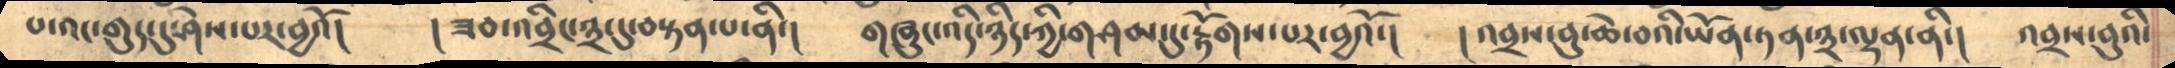པ་འང་གུད་དུ་ཤེས་པར་བྱའོ།   ། ཟབ་འབྲིང་༣་དུ་བསྟན་པ་ནི་།    གཞུང་འདི་ཉིད་ཀྱི་གཤམ་དུ་རྟོགས་པར་བྱའོ་།   ། འབྲས་བུ་ཆེ་བའི་ཡོན་ཏན་༣་ལྡན་ནི་།   འབྲས་བུའི་
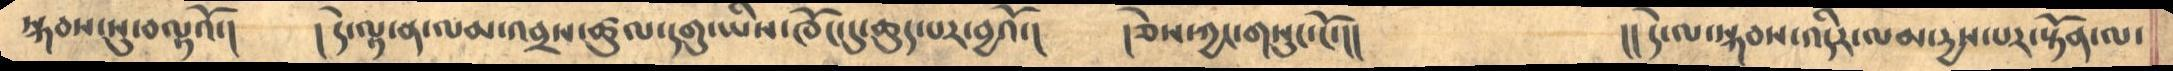སྐབས་སུ་བལྟའོ་།    ། དེ་ལྟ་ན་ལམ་འབྲས་ཚུལ་དགུ་ཡིས་ཁོང་དུ་ཆུད་པར་བྱའོ་།    ། ཅེས་ཀྱང་གསུང་ངོ་།།          །། དེ་ལ་སྐབས་འདིར་ལམ་དྱས་པར་སྟོན་ལ་
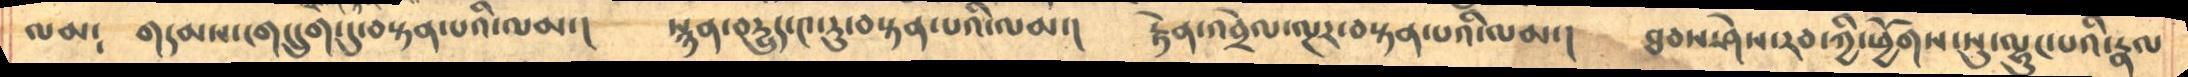ལམ༴    གདམས་ངག་དྲུག་དུ་བསྟན་པའི་ལམ་།    སྙན་བདྱུད་༤་རུ་བསྟན་པའི་ལམ་།    རྟེན་འབྲེལ་ལྔར་བསྟན་པའི་ལམ་།    ཐབས་ཤེས་རབ་ཀྱི་ཕྱོགས་སུ་ལྷུང་པའི་རྣལ
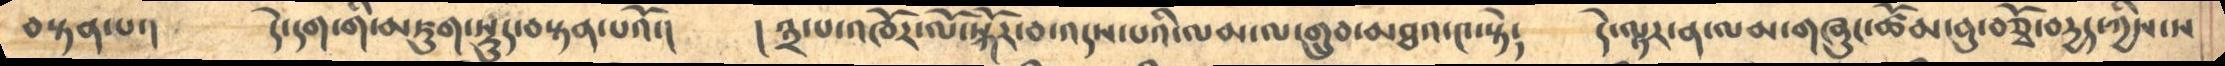བསྟན་པ་།    དེ་དག་གི་མཇུག་སྡུད་བསྟན་པའོ་།    ། ༣་པ་འཁོར་ལོ་སྐོར་བ་འདས་པའི་ལམ་ལ་གྲུབ་མཐའ་༤་སྟེ་    དེ་ལྟར་ན་ལམ་གཞུང་ཚོམ་བུ་བཅྭོ་བདྱད་ཀྱིས་ས
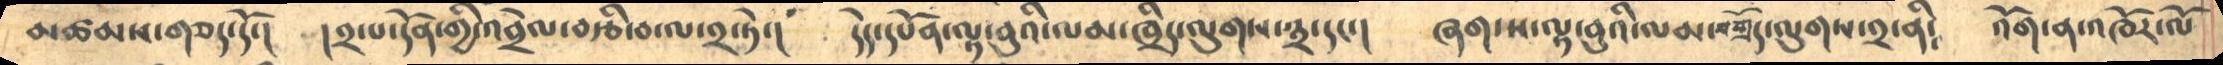མཚམས་གཅད་དོ་།      །༢་པ་དོན་གྱི་འབྲེལ་བརྩི་བ་ལ་༢་ཏེ་།     དེད་དཔོན་ལྟ་བུའི་ལམ་ཁྲིད་ལུགས་༣་དང་།    ཞག་ས་ལྟ་བུའི་ལམ་བགྲོད་ལུགས་༢་ནི༴   འོག་ན་འཁོར་ལོ
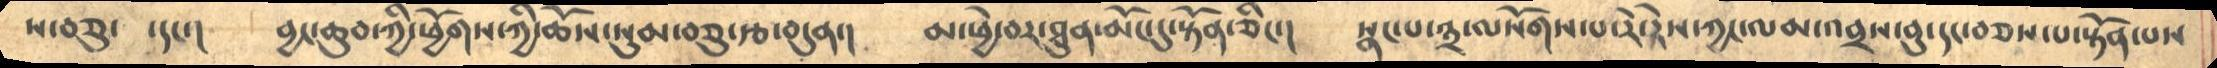ས་བཅུ་  ་དང་།      བྱང་ཆུབ་ཀྱི་ཕྱོགས་ཀྱི་ཆོས་སུམ་བཅུ་རྩ་བདུན་།     མ་ཕྱེ་བར་ཐུན་མོང་དུ་སྟོན་ཅིང་།    སྣང་པ་༣་ལསོགས་པ་རེ་རེས་ཀྱང་ལམ་འབྲས་བུ་དང་བཅས་པ་སྟོན་པས
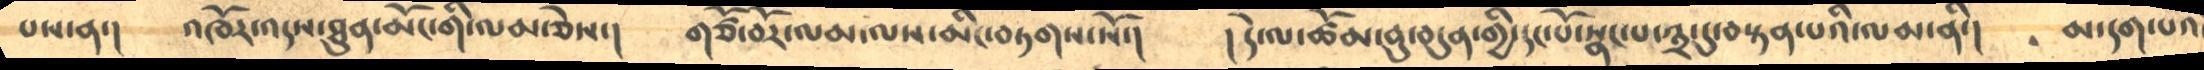པས་ན་།       འཁོར་འདས་ཐུནམོང་གི་ལམ་ཅེས་།    གཙོ་བོར་ལམ་ལས་མིང་བཏགས་སོ་།     ། དེ་ལ་ཚོམ་བུ་བདུན་གྱི་དང་པོ་སྣང་པ་༣་དུ་བསྟན་པའི་ལམ་ནི་།   མ་དག་པའི
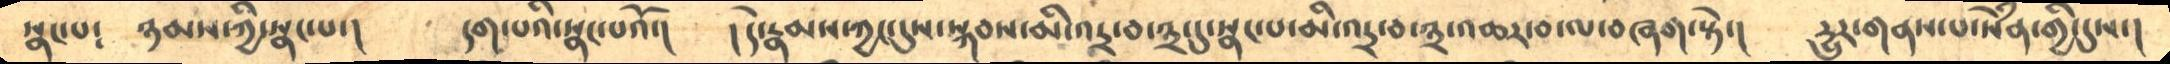སྣང་པ༴    ཉམས་ཀྱི་སྣང་པ་།    དག་པའི་སྣང་པའོ་།     ། དེ་རྣམས་ཀྱང་དུས་སྐབས་མི་འདྲ་བ་༣་དུ་སྣང་པ་མི་འདྲ་བ་༣་འཆར་བ་ལ་བཞག་སྟེ་།  དྱུར་གནས་པ་སེཾན་གྱི་དུས་།
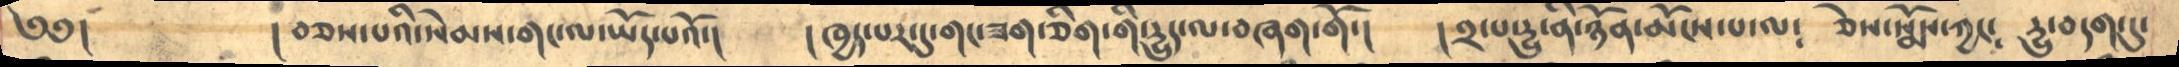༄༅།       ། བཅས་པའི་སེམས་གང་ལ་ཡོད་པའོ་།    ། ཁྱད་པར་དུ་གང་ཟག་ཅིག་གི་དྱུད་ལ་བཞག་གོ་།    ། ༢་པ་དྱུ་ནི་ཉོན་མོངས་པ་ལ༴    ཅེས་སྨོས་ཀྱང༴    དྱུ་བདག་དུ་
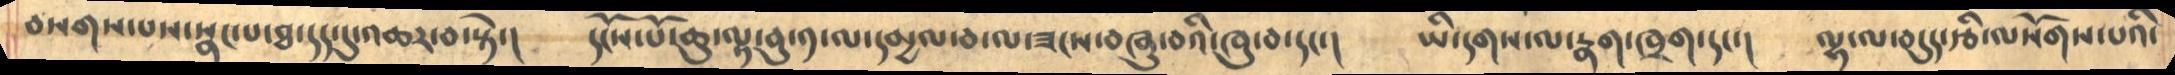བསགས་པས་སྣང་པ་ཐ་དད་དུ་འཆར་བ་སྟེ་།   དངོས་པོ་ཆུ་ལྟ་བུ་༡་ལ་དམྱལ་བ་ལ་ཟངས་བཞུ་བའི་ཁུ་བ་དང་།    ཡི་དགས་ལ་རྣག་ཁྲག་དང་།   ལྷ་ལ་བདུད་རྩི་ལ་སོགས་པའི་
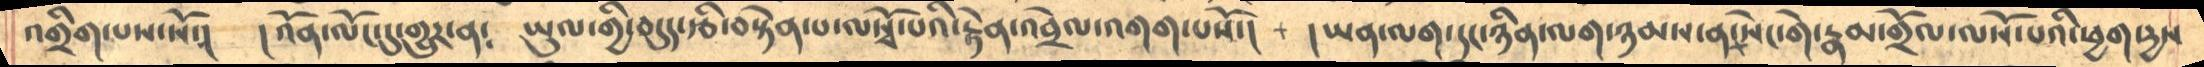འགྲིག་པས་སོ་།  །འོན་ལོང་དུ་གྱུར་ན༴  ཡུལ་གྱི་བདུད་རྩི་བསྟེན་པ་ལསྭོ་པའི་རྟེན་འབྲེལ་འགག་པསོ་།  །ཡན་ལག་དང་ཉིན་ལག་ཉམས་ན་སེང་གེ་རྣམ་གྲོལ་ལསྭོ་པའི་ཕྱག་དྱས
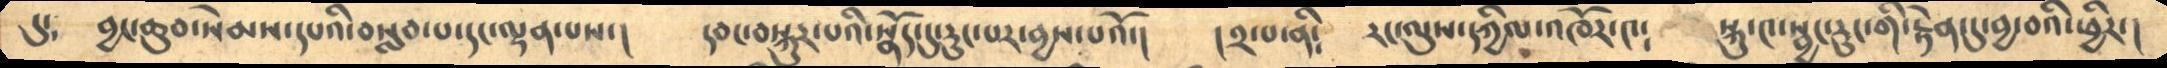དུ༴     བྱང་ཆུབ་སེམས་དཔའི་བསླབ་པ་དང་ལྡན་པས་།    དབང་བསྐུར་པའི་སྣོད་དུ་རུང་བར་བྱས་པའོ་།    ། ༢་པ་ནི༴    རང་ལུས་དཀྱིལ་འཁོར་༤༴  སྐུ་༤་སྦྱང་རུང་གི་རྟེན་དུ་བྱ་བའི་ཕྱིར་།
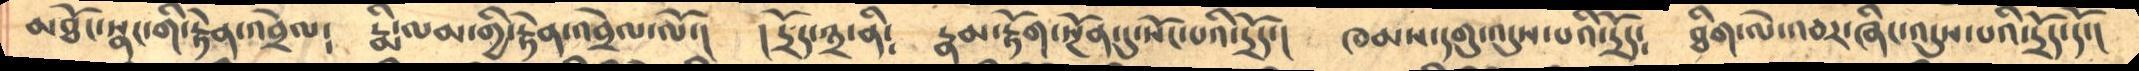མཐོང་སྣང་གི་རྟེན་འབྲེལ༴   རྨི་ལམ་གྱི་རྟེན་འབྲེལ་ལོ་།    ། དྲོད་༣་ནི༴    རྣམ་རྟོག་སྔོན་དུ་སོང་པའི་དྲོད་།     ཁམས་དགུ་འདུས་པའི་དྲོད༴   ཐིག་ལེ་འབར་ཞིང་འདུས་པའི་དྲོད་དོ་།
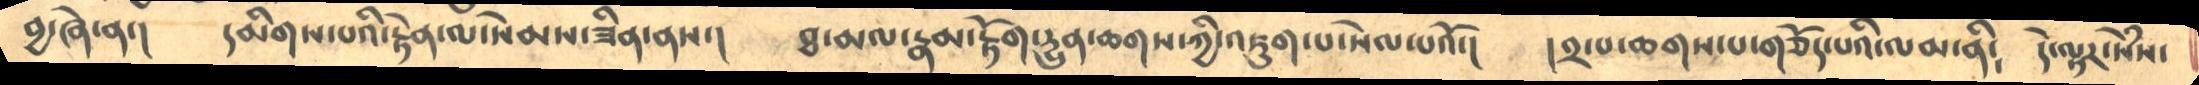བྱ་ཞེ་ན་།    དམིགས་པའི་རྟེན་ལ་སེམས་ཟིན་ནས་།    ཐ་མལ་རྣམ་རྟོག་དྱུན་ཆགས་ཀྱི་འཇུག་པ་སེལ་པའོ་།   །༢་པ་ཆགས་པ་གཅོད་པའི་ལམ་ནི༴   དེ་ལྟར་སེཾས་
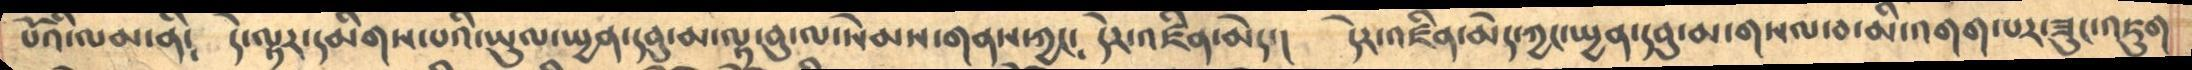པོའི་ལམ་ནི༴    དེ་ལྟར་དམིགས་པའི་ཡུལ་སྤྱན་དབུ་མ་ལྟ་བུ་ལ་སེམས་གནས་ཀྱང༴  དེར་འཛིན་མེད་།   དེར་འཛིན་མེད་ཀྱང་སྤྱན་དབུ་མ་གསལ་བ་མི་འགག་པར་ཟུང་འཇུག
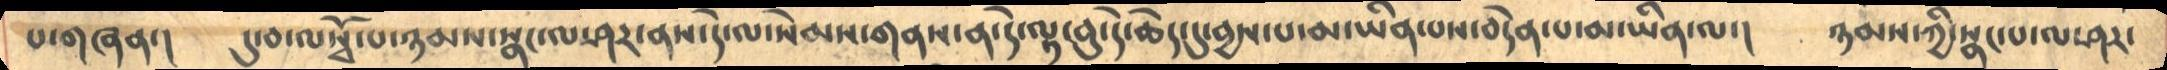པ་གཞན་།    དུ་བ་ལསྭོ་པ་ཉམས་སྣང་མ་ཤར་ནས་དེ་ལ་སེམས་གནས་ན་དེ་ལྟ་བུ་དེ་ཆེད་དུ་བྱས་པ་མ་ཡིན་པས་བདེན་པ་མ་ཡིན་ལ་།   ཉམས་ཀྱི་སྣང་པ་ལ་ཤར་
